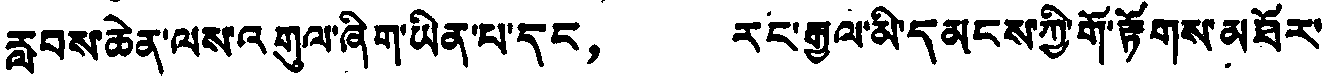རླབས་ཆེན་ལས་འགུལ་ཞིག་ཡིན་པ་དང， རང་རྒྱལ་མི་དམངས་ཀྱི་གོ་རྟོགས་མཐོར་
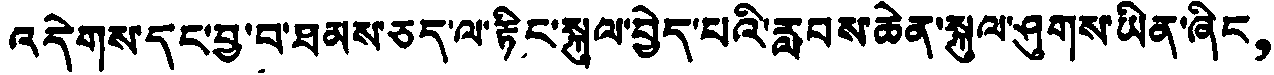འདེགས་དང་བྱ་བ་ཐམས་ཅད་ལ་རྟིང་སྐུལ་བྱེད་པའི་རླབས་ཆེན་སྐུལ་ཤུགས་ཡིན་ཞིང，
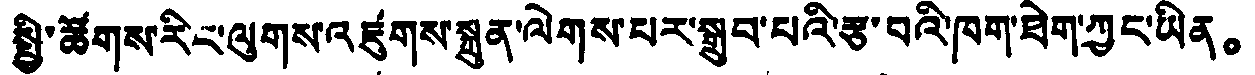སྤྱི་ཚོགས་རིང་ལུགས་འཛུགས་སྐྲུན་ལེགས་པར་སྒྲུབ་པའི་རྩ་བའི་ཁག་ཐེག་ཀྱང་ཡིན。
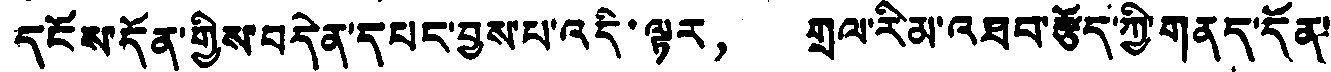དངོས་དོན་གྱིས་བདེན་དཔང་བྱས་པ་འདི་ལྟར， གྲལ་རིམ་འཐབ་རྩོད་ཀྱི་གནད་དོན་
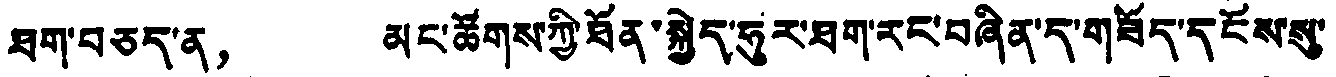ཐག་བཅད་ན， མང་ཚོགས་ཀྱི་ཐོན་སྐྱེད་ཧུར་ཐག་རང་བཞིན་དུ་གཟོད་དངོས་སུ་
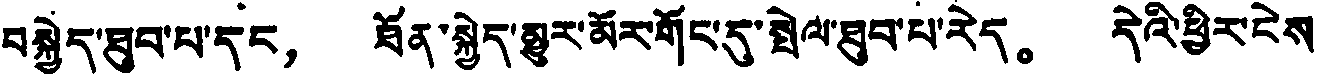བསྐྱེད་ཐུབ་པ་དང， ཐོན་སྐྱེད་མྱུར་མོར་གོང་དུ་སྤེལ་ཐུབ་པ་རེད。 དེའི་ཕྱིར་ངེས་
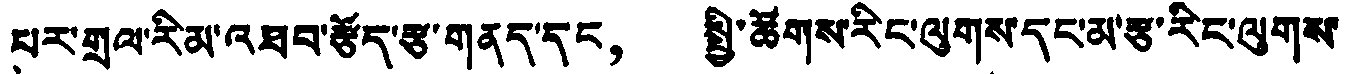པར་གྲལ་རིམ་འཐབ་རྩོད་རྩ་གནད་དང， སྤྱི་ཚོགས་རིང་ལུགས་དང་མ་རྩ་རིང་ལུགས་
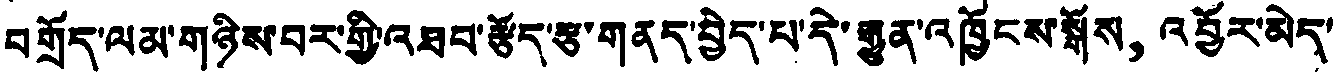བགྲོད་ལམ་གཉིས་བར་གྱི་འཐབ་རྩོད་རྩ་གནད་བྱེད་པ་དེ་རྒྱུན་འཁྱོངས་སྒོས， འབྱོར་མེད་
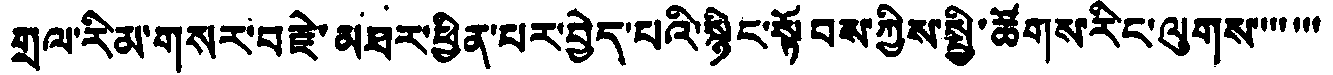གྲལ་རིམ་གསར་བརྗེ་མཐར་ཕྱིན་པར་བྱེད་པའི་སྙིང་སྟོབས་ཀྱིས་སྤྱི་ཚོགས་རིང་ལུགས་་་་་་་
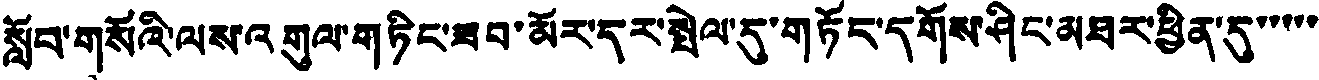སློབ་གསོའི་ལས་འགུལ་གཏིང་ཟབ་མོར་དར་སྤེལ་དུ་གཏོང་དགོས་ཤིང་མཐར་ཕྱིན་དུ་་་་་་
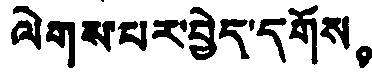ལེགས་པར་བྱེད་དགོས。
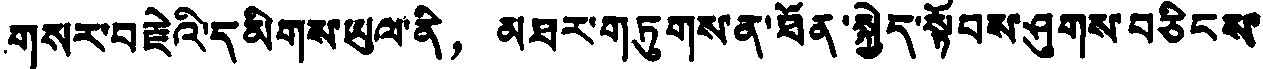གསར་བརྗེའི་དམིགས་ཡུལ་ནི， མཐར་གཏུགས་ན་ཐོན་སྐྱེད་སྟོབས་ཤུགས་བཅིངས་
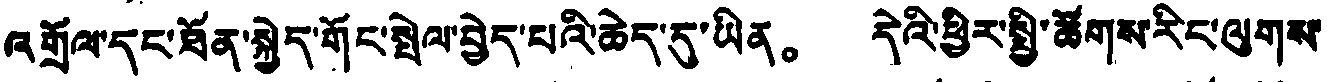འགྲོལ་དང་ཐོན་སྐྱེད་གོང་སྤེལ་བྱེད་པའི་ཆེད་དུ་ཡིན。 དེའི་ཕྱིར་སྤྱི་ཚོགས་རིང་ལུགས་
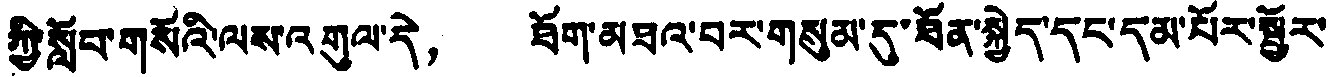ཀྱི་སློབ་གསོའི་ལས་འགུལ་དེ， ཐོག་མཐའ་བར་གསུམ་དུ་ཐོན་སྐྱེད་དང་དམ་པོར་སྦྱོར་
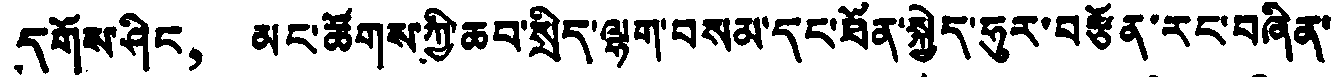དགོས་ཤིང， མང་ཚོགས་ཀྱི་ཆབ་སྲིད་ལྷག་བསམ་དང་ཐོན་སྐྱེད་ཧུར་བརྩོན་རང་བཞིན་
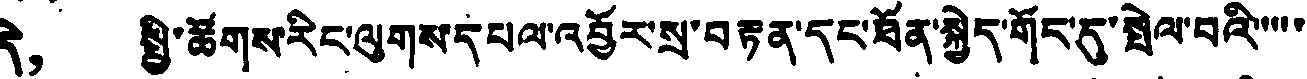དེ， སྤྱི་ཚོགས་རིང་ལུགས་དཔལ་འབྱོར་སྲ་བརྟན་དང་ཐོན་སྐྱེད་གོང་དུ་སྤེལ་བའི་་་་་
